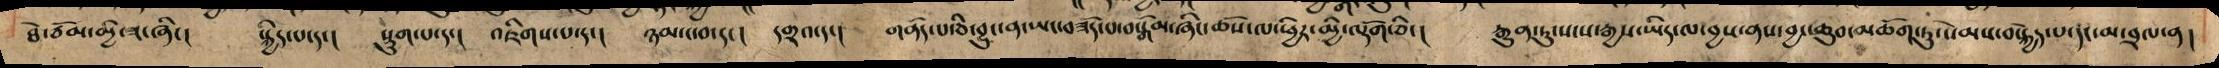ཐེ་ཙོམ་མྱི་ཟ་ཞིང། སྐྱིད་པ་དང། སྡུག་པ་དང། འཇིག་པ་དང། ཉམ་ང་བ་དང། དགྲའ་དང། གནོད་པ་ཅི་བྱུང་ན་ཡང་བཟོད་པ་བསྒོམ་ཞིང་ཆོས་ལ་ཕྱིར་མྱི་ལྡོག་ཅིང། རྒྱུན་ཏུ་སངས་རྒྱས་ཡིད་ལ་བྱས་ནས་བྱང་ཆུབ་མཆོག་ཏུ་སེམས་བསྐྱེད་པ་དང་མ་བྲལ་ན།
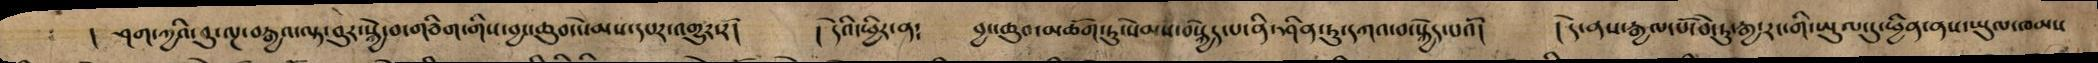། ཤག་ཀྱའི་བུ་ལྔ་བརྒྱའ་ལྟ་བུར་སྐྱེ་བ་གཅིག་གིས་བྱང་ཆུབ་སེམས་དཔར་འགྱུར་རོ། ། དེའི་ཕྱིར་ན༴ བྱང་ཆུབ་མཆོག་ཏུ་སེམས་བསྐྱེད་པ་ནི་ཤིན་ཏུ་དཀའ་བ་སྐྱེད་པའོ། ། དེ་ནས་རྒྱལ་པོ་བེ་ཏུ་རྒྱ་རང་གི་ཡུལ་དུ་ཕྱིན་ནས་ཡུལ་ཁམས
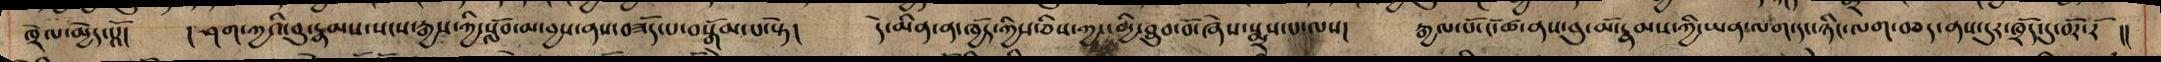ཁྲེལ་མྱེད་པཱོ། ། ཤག་ཀྱའི་བུ་རྣམས་སངས་རྒྱས་ཀྱི་སློབ་མ་བྱས་ནས་བཟོད་པ་བསྒོམ་པ་སྟེ། དེ་མིན་ན་ཁྱོད་ཀྱིས་ཅིས་ཀྱང་མི་ཐུབ་བོ་ཞེས་སྨྲས་པ་ལས། རྒྱལ་པོ་ངོ་ཚ་ནས་བུ་མོ་རྣམས་ཀྱི་ཡན་ལག་དང་ཉིང་ལག་བཅད་ནས་དུར་ཁྲོད་དུ་བོར་རོ །།
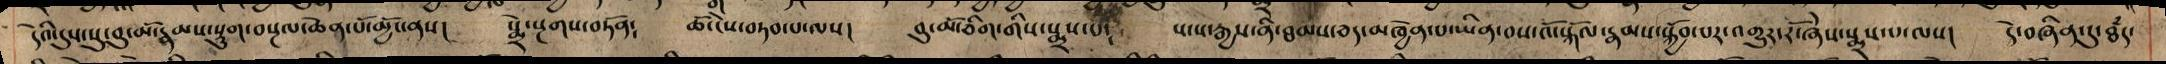དེའི་དུས་སུ་བུ་མོ་རྣམས་སྡུག་བསྔལ་ཆེན་པོ་མྱོང་ནས། སྨྲེ་སྔགས་བཏོན༴ ཆོ་ངེས་བཏབ་པ་ལས། བུ་མོ་གཅིག་གིས་སྨྲས་པ༴ སངས་རྒྱས་ཐམས་ཅད་མཁྱེན་པ་ཡིན་བས་འོ་སྐོལ་རྣམས་སྐྱོབ་པར་འགྱུར་རོ་ཞེས་སྨྲས་པ་ལས། དེ་བཞིན་དུ་ཐཾད་
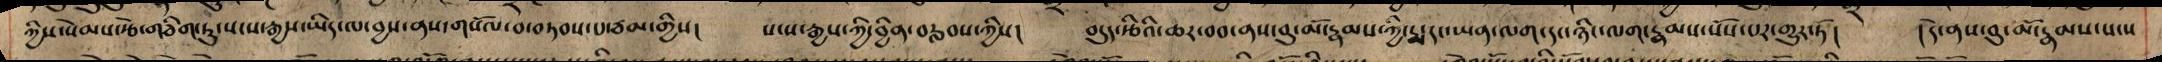ཀྱིས་སེམས་རྩེ་གཅིག་ཏུ་སངས་རྒྱས་ཡིད་ལ་བྱས་ནས་གསོལ་བ་བཏབས་པ་ཙམ་གྱིས། སངས་རྒྱས་ཀྱི་བྱིན་བརླབས་ཀྱིས། བདུད་རྩིའི་ཆར་བབ་ནས་བུ་མོ་རྣམས་ཀྱི་རྨ་དང་ཡན་ལག་དང་ཉིང་ལག་རྣམས་སོས་པར་གྱུར་ཏོ། །དེ་ནས་བུ་མོ་རྣམས་སངས
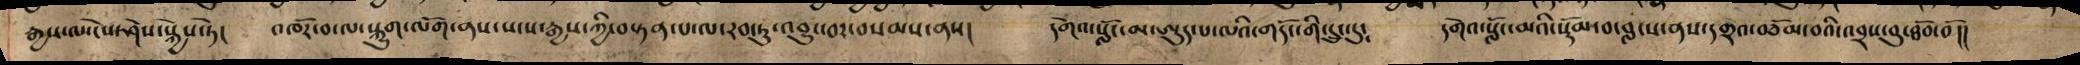རྒྱས་ལ་ངེས་ཤེས་སྐྱེས་ཏེ། འཁོར་བ་ལ་སྐྱུག་ལོག་ནས་སངས་རྒྱས་ཀྱི་བསྟན་པ་ལ་རབ་ཏུ་འབྱུང་བར་བསམས་ནས། དགེའ་སློང་མ་ཨུད་པ་ལའི་གདོང་གི་དྲུང་ངུ༴ དགེའ་སློང་མའི་སྡོམ་བ་བླངས་ནས་དགྲའ་བཅོམ་བའི་འབྲས་བུ་ཐོབ་བོ།།
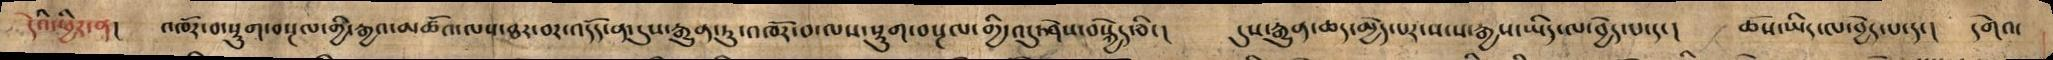དེའི་ཕྱིར་ན། འཁོར་བ་སྡུག་བསྔལ་གྱི་རྒྱའ་མཚོའ་ལས་ཐར་བར་འདོད་ན་དུས་རྒྱུན་ཏུ་འཁོར་བ་ལས་སྡུག་བསྔལ་གྱི་འདུ་ཤེས་བསྐྱེད་ཅིང། དུས་རྒྱུན་ཆད་མྱེད་པར་སངས་རྒྱས་ཡིད་ལ་བྱེད་པ་དང། ཆོས་ཡིད་ལ་བྱེད་པ་དང། དགེའ་
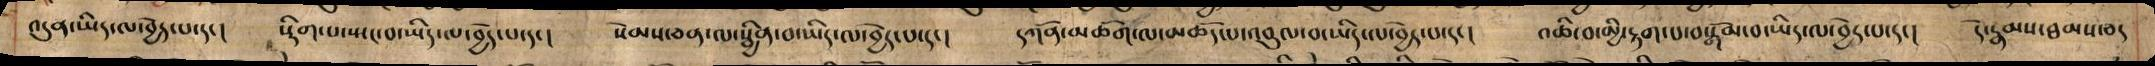འདུན་ཡིད་ལ་བྱེད་པ་དང། སྡིག་པ་ཡང་བ་ཡིད་ལ་བྱེད་པ་དང། སེམས་ཅན་ལ་སྦྱིན་བ་ཡིད་ལ་བྱེད་པ་དང། དཀོན་མཆོག་ལ་མཆོད་པ་འབུལ་བ་ཡིད་ལ་བྱེད་པ་དང། འཆི་བ་མྱི་རྟག་པ་བསྒོམ་བ་ཡིད་ལ་བྱེད་པ་དང། དེ་རྣམས་ཐམས་ཅད
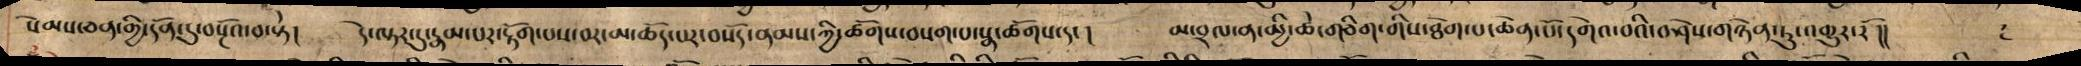སེམས་ཅན་གྱི་དོན་དུ་བསྔོའ་བ་སྟེ། དེ་ལྟར་དུ་རྣམ་པར་རྟོག་པས་བར་མ་ཆོད་པར་བསོད་ནམས་ཀྱི་ཚོགས་བསག་པ་སྣ་ཚོགས་དང། མ་བྲལ་ན་མྱི་ཚེ་གཅིག་གིས་ཐེག་པ་ཆེན་པོ་དགེའ་བའི་བཤེས་གཉེན་ཏུ་འགྱུར་རོ །།
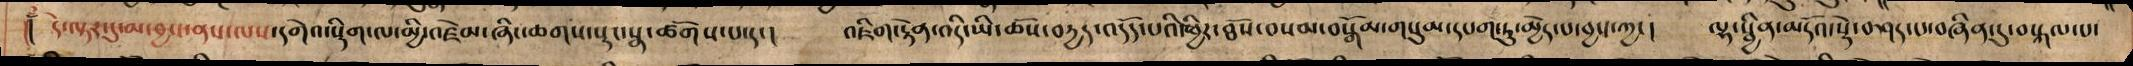།། དེ་ལྟར་དུ་མ་བྱས་ནས་ལས་དགེའ་སྡིག་ལ་མྱི་འཛེམ་ཞིང་ཆགས་སྡང་སྣ་ཚོགས་པ་དང། འཇིག་རྟེན་འདི་ཡི་ཆོས་བརྱད་འདོད་པའི་ཕྱིར་ཐོས་བསམ་བསྒོམ་གསུམ་དཔག་ཏུ་མྱེད་པ་བྱས་ཀྱང། ལྷ་སྦྱིན་མདོའ་སྡེ་བཤད་པ་བཞིན་དུ་བསྐལ་པ་
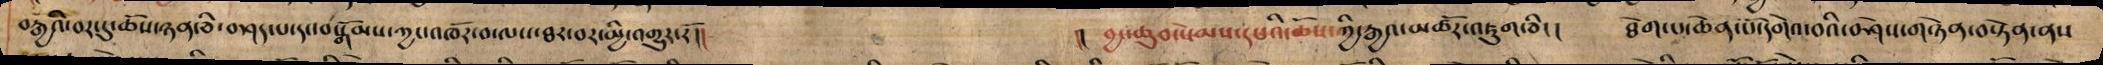བརྒྱའི་བར་དུ་ཆོས་ཉན་ཅིང་བཤད་པ་དང་བསྒོམས་ཀྱང་འཁོར་བ་ལས་ཐར་བར་མྱི་འགྱུར་རོ།། །། བྱང་ཆུབ་སེམས་དཔའི་ཆོས་ཀྱི་རྒྱའ་མཚོར་འཇུག་ཅིང། ཐེག་པ་ཆེན་པོ་དགེའ་བའི་བཤེས་གཉེན་བསྟེན་ནས
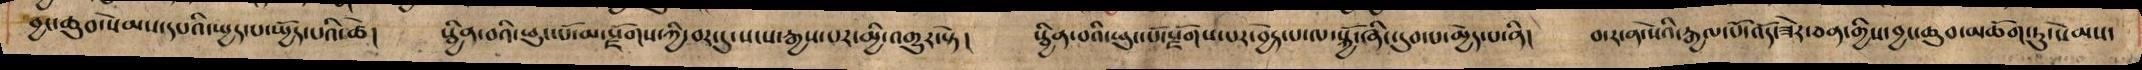བྱང་ཆུབ་སེམས་དཔའི་སྤྱད་པ་སྤྱོད་པའི་ཚེ། སྦྱིན་བའི་ཕུང་པོ་མ་སྫོགས་ཀྱི་བར་དུ་སངས་རྒྱས་པར་མྱི་འགྱུར་ཏེ། སྦྱིན་བའི་ཕུང་པོ་སྫོགས་པར་བྱེད་པ་ལ་སྐྱོ་ཞིང་དུབ་པ་མྱེད་པ་ནི། བ་ར་ན་སེའི་རྒྱལ་པོ་འོད་ཟེར་ཅན་གྱིས་བྱང་ཆུབ་ྱཆོག་ཏུ་སེམས་
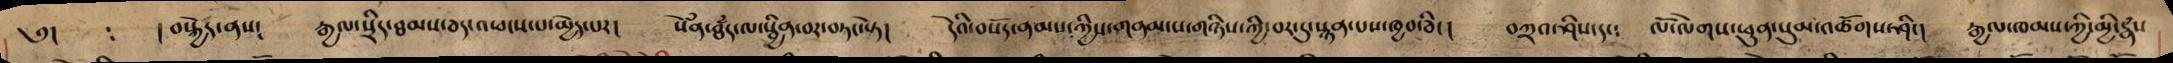༅། །བསྐྱེད་ནས༴ རྒྱལ་སྲིད་ཐམས་ཅད་འཕངས་པ་མྱེད་པར། སེཾན་ཐཾད་ལ་སྦྱིན་བར་བཏང་སྟེ། དེའི་བསོད་ནམས་ཀྱིས་གནམ་ས་གཉིས་ཀྱི་བར་དུ་སྙན་པས་ཁྱབ་ཅིང། བཀྲའ་ཞིས་དང༴ ལོ་ལེགས་ཕུན་སུམ་འཚོགས་ཤིང། རྒྱལ་ཁམས་ཀྱི་མྱི་རྣཾས
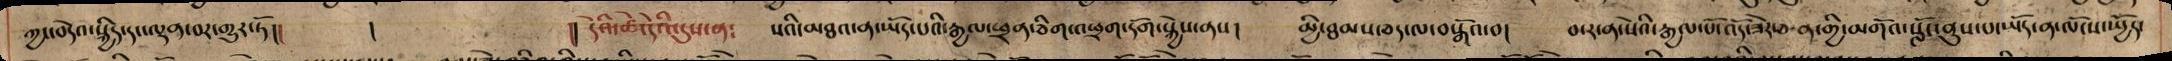ཀྱང་བདེའ་སྐྱིད་དང་ལྡན་བར་གྱུར་ཏོ།། ། །། དདེའི་ཚེ་དེའི་དུས་ན༴ སའི་མཐའ་ན་ཡོད་པའི་རྒྱལ་འཕྲན་ཅིག་འཕྲག་དོག་སྐྱེས་ནས། མྱི་ཐམས་ཅད་ལ་བསྒོའ་བ། བ་ར་ན་སེའི་རྒྱལ་པོ་འོད་ཟེར་ཅན་གྱི་མགོའ་སློང་ནུས་པ་ཡོད་ན་ལོངས་སྤྱོད་
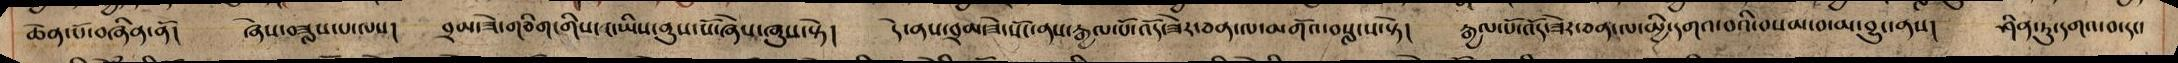ཆེན་པོ་བཞིན་ནོ། ཞེས་བཟླས་པ་ལས། བྲམ་ཟེ་གཅིག་གིས་ང་ཡིས་ནུས་སོ་ཞེས་ཞུས་སྟེ། དེ་ནས་བྲམ་ཟེ་སོང་ནས་རྒྱལ་པོ་འོད་ཟེར་ཅན་ལ་མགོའ་བསླངས་སྟེ། རྒྱལ་པོ་འོད་ཟེར་ཅན་ལ་མྱི་དགའ་བའི་བསམ་བ་མ་བྱུང་ནས། ཤིན་ཏུ་དགའ་བ་དང་
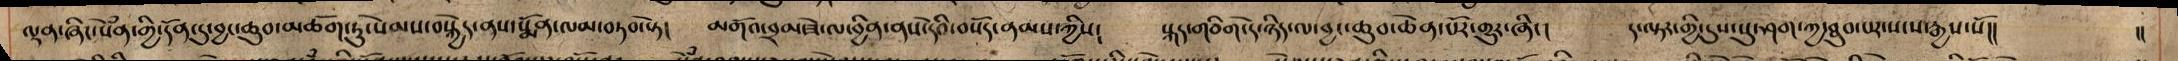ལྡན་ཞིང་སེཾན་གྱི་དོན་དུ་བྱང་ཆུབ་མཆོག་ཏུ་སེམས་བསྐྱེད་ནས་སྨོན་ལམ་བཏབ་སྟེ། མགོའ་བྲམ་ཟེ་ལ་བྱིན་ནས་དེའི་བསོད་ནམས་ཀྱིས༴ སྐད་ཅིག་དེ་ཉིད་ལ་བྱང་ཆུབ་ཆེན་པོར་གྱུར་ཞིང། ད་ལྟར་གྱི་དུས་སུ་ཤག་ཀྱ་ཐུབ་པར་སངས་རྒྱས་སོ།། །།
